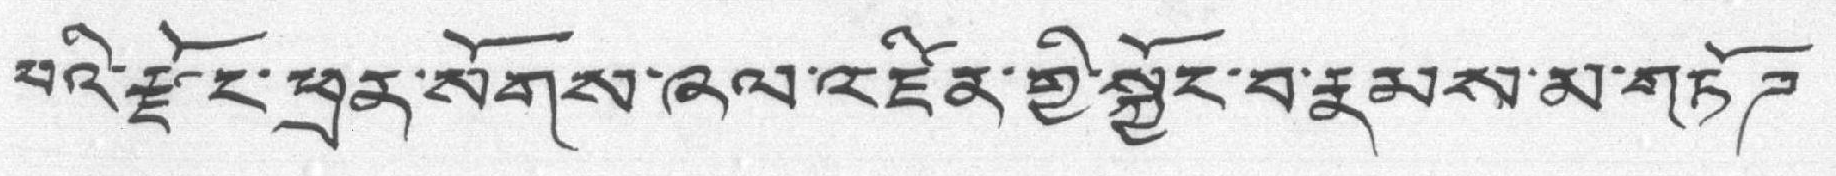པའི་རྫོང་ཕྲན་སོགས་ཞལ་འཛིན་གྱི་སྐྱོང་བ་རྣམས་མ་གཏོཌ
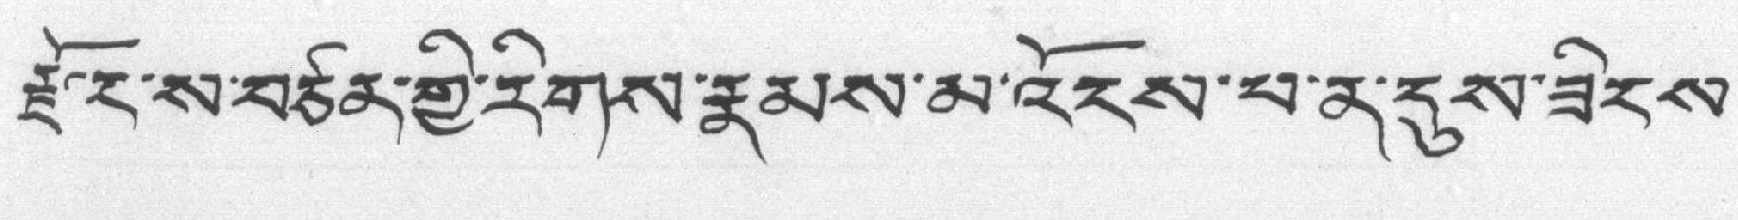རྫོང་ས་བཙན་གྱི་རིགས་རྣམས་མ་འོངས་པ་ན་དུས་ཟིངས་
